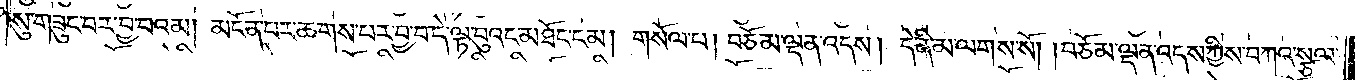སུ་གཟུང་བར་བྱ་བའམ། མངོན་པར་ཆགས་པར་བྱ་བ་དེ་ལྟ་བུའང་མཐོང་ངམ། གསོལ་པ། བཅོམ་ལྡན་འདས། དེ་ནི་མ་ལགས་སོ། །བཅོམ་ལྡན་འདས་ཀྱིས་བཀའ་སྩལ་
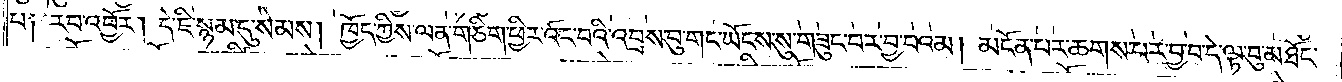པ། རབ་འབྱོར། དེ་ཇི་སྙམ་དུ་སེམས། ཁྱོད་ཀྱིས་ལན་གཅིག་ཕྱིར་འོང་བའི་འབྲས་བུ་གང་ཡོངས་སུ་གཟུང་བར་བྱ་བའམ། མངོན་པར་ཆགས་པར་བྱ་བ་དེ་ལྟ་བུ་མཐོང་
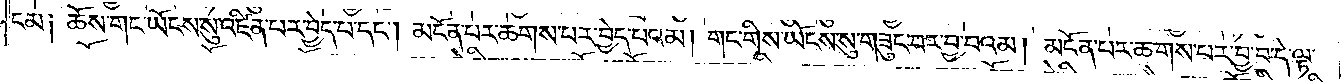ངམ༑ ཆོས་གང་ཡོངས་སུ་འཛིན་པར་བྱེད་པ་དང༌། མངོན་པར་ཆགས་པར་བྱེད་པའམ། གང་གིས་ཡོངས་སུ་གཟུང་བར་བྱ་བའམ། མངོན་པར་ཆགས་པར་བྱ་བ་དེ་ལྟ་
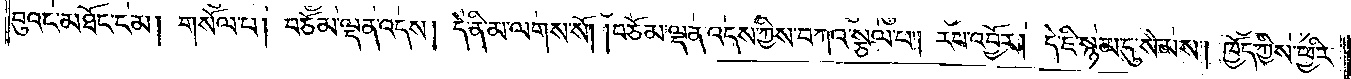བུའང་མཐོང་ངམ། གསོལ་པ། བཅོམ་ལྡན་འདས། དེ་ནི་མ་ལགས་སོ། །བཅོམ་ལྡན་འདས་ཀྱིས་བཀའ་སྩལ་པ། རབ་འབྱོར། དེ་ཇི་སྙམ་དུ་སེམས། ཁྱོད་ཀྱིས་ཕྱིར་
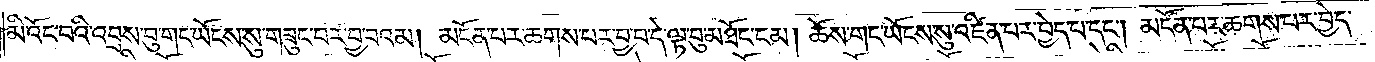མི་འོང་བའི་འབྲས་བུ་གང་ཡོངས་སུ་གཟུང་བར་བྱ་བའམ། མངོན་པར་ཆགས་པར་བྱ་བ་དེ་ལྟ་བུ་མཐོང་ངམ། ཆོས་གང་ཡོངས་སུ་འཛིན་པར་བྱེད་པ་དང༌། མངོན་པར་ཆགས་པར་བྱེད་
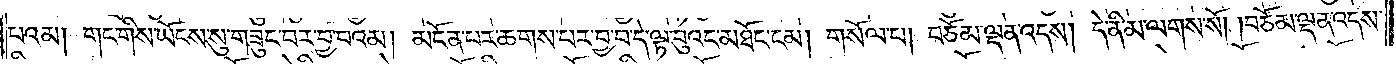པའམ། གང་གིས་ཡོངས་སུ་གཟུང་བར་བྱ་བའམ། མངོན་པར་ཆགས་པར་བྱ་བ་དེ་ལྟ་བུའང་མཐོང་ངམ། གསོལ་པ། བཅོམ་ལྡན་འདས། དེ་ནི་མ་ལགས་སོ། །བཅོམ་ལྡན་འདས་
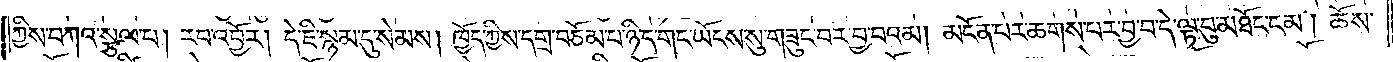ཀྱིས་བཀའ་སྩལ་པ། རབ་འབྱོར། དེ་ཇི་སྙམ་དུ་སེམས། ཁྱོད་ཀྱིས་དགྲ་བཅོམ་པ་ཉིད་གང་ཡོངས་སུ་གཟུང་བར་བྱ་བའམ། མངོན་པར་ཆགས་པར་བྱ་བ་དེ་ལྟ་བུ་མཐོང་ངམ། ཆོས་
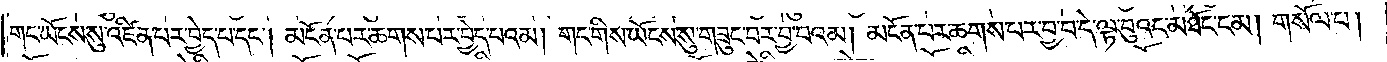གང་ཡོངས་སུ་འཛིན་པར་བྱེད་པ་དང༌། མངོན་པར་ཆགས་པར་བྱེད་པའམ། གང་གིས་ཡོངས་སུ་གཟུང་བར་བྱ་བའམ། མངོན་པར་ཆགས་པར་བྱ་བ་དེ་ལྟ་བུའང་མཐོང་ངམ། གསོལ་པ།
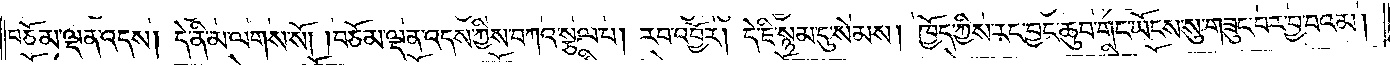བཅོམ་ལྡན་འདས། དེ་ནི་མ་ལགས་སོ། །བཅོམ་ལྡན་འདས་ཀྱིས་བཀའ་སྩལ་པ། རབ་འབྱོར། དེ་ཇི་སྙམ་དུ་སེམས། ཁྱོད་ཀྱིས་རང་བྱང་ཆུབ་གང་ཡོངས་སུ་གཟུང་བར་བྱ་བའམ།
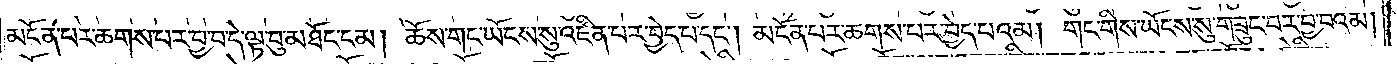མངོན་པར་ཆགས་པར་བྱ་བ་དེ་ལྟ་བུ་མཐོང་ངམ། ཆོས་གང་ཡོངས་སུ་འཛིན་པར་བྱེད་པ་དང༌། མངོན་པར་ཆགས་པར་བྱེད་པའམ། གང་གིས་ཡོངས་སུ་གཟུང་བར་བྱ་བའམ།
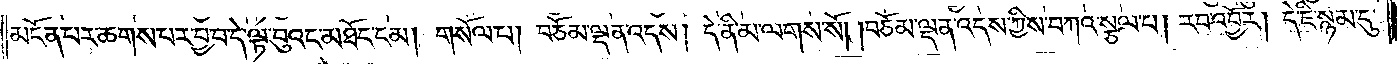མངོན་པར་ཆགས་པར་བྱ་བ་དེ་ལྟ་བུའང་མཐོང་ངམ། གསོལ་པ། བཅོམ་ལྡན་འདས། དེ་ནི་མ་ལགས་སོ། །བཅོམ་ལྡན་འདས་ཀྱིས་བཀའ་སྩལ་པ། རབ་འབྱོར། དེ་ཇི་སྙམ་དུ་
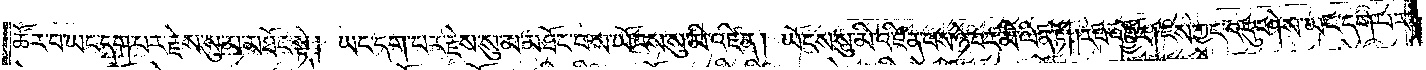ཚོར་བ་ཡང་དག་པར་རྗེས་སུ་མ་མཐོང་སྟེ། ཡང་དག་པར་རྗེས་སུ་མ་མཐོང་བས་ཡོངས་སུ་མི་འཛིན། ཡོངས་སུ་མི་འཛིན་པས་ཉེ་བར་མི་ལེན་ཏོ། །རབ་འབྱོར། ངས་ཀྱང་འདུ་ཤེས་ཡང་དག་པར་
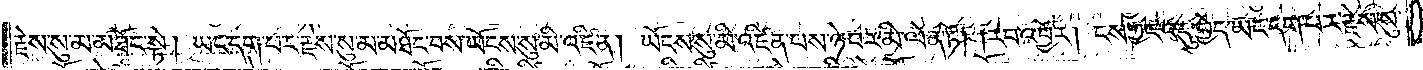རྗེས་སུ་མ་མཐོང་སྟེ། ཡང་དག་པར་རྗེས་སུ་མ་མཐོང་བས་ཡོངས་སུ་མི་འཛིན། ཡོངས་སུ་མི་འཛིན་པས་ཉེ་བར་མི་ལེན་ཏོ། །རབ་འབྱོར། ངས་ཀྱང་འདུ་བྱེད་ཡང་དག་པར་རྗེས་སུ་
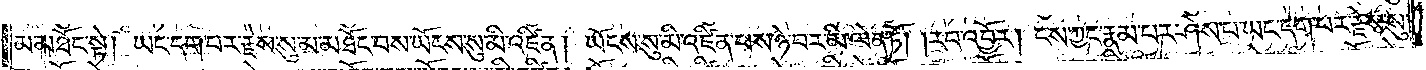མ་མཐོང་སྟེ། ཡང་དག་པར་རྗེས་སུ་མ་མཐོང་བས་ཡོངས་སུ་མི་འཛིན། ཡོངས་སུ་མི་འཛིན་པས་ཉེ་བར་མི་ལེན་ཏོ། །རབ་འབྱོར། ངས་ཀྱང་རྣམ་པར་ཤེས་པ་ཡང་དག་པར་རྗེས་སུ་
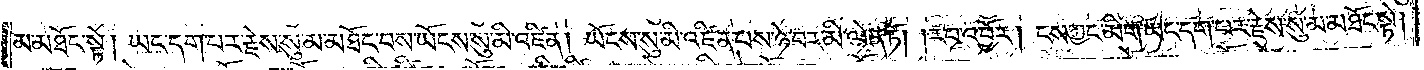མ་མཐོང་སྟེ། ཡང་དག་པར་རྗེས་སུ་མ་མཐོང་བས་ཡོངས་སུ་མི་འཛིན། ཡོངས་སུ་མི་འཛིན་པས་ཉེ་བར་མི་ལེན་ཏོ། །རབ་འབྱོར། ངས་ཀྱང་མིག་ཡང་དག་པར་རྗེས་སུ་མ་མཐོང་སྟེ།
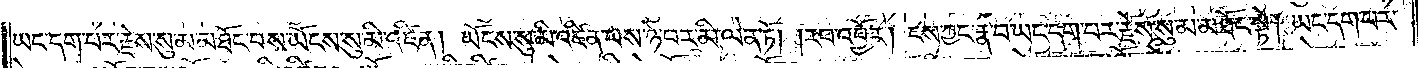ཡང་དག་པར་རྗེས་སུ་མ་མཐོང་བས་ཡོངས་སུ་མི་འཛིན། ཡོངས་སུ་མི་འཛིན་པས་ཉེ་བར་མི་ལེན་ཏོ། །རབ་འབྱོར། ངས་ཀྱང་རྣ་བ་ཡང་དག་པར་རྗེས་སུ་མ་མཐོང་སྟེ། ཡང་དག་པར་
